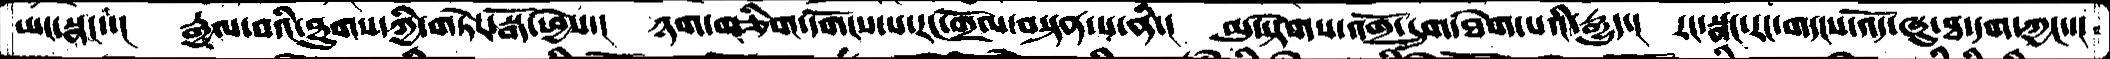ཡང་སྣང་་།   རྒྱལ་བའི་ཐུགས་ཀྱི་གཏེར་སྒོ་ཕྱེས་།  ཉག་གཅིག་དགོངས་པ་རང་གྲོལ་བསྟན་པ་ནི་།  མུ་སྟེགས་འགྲོ་དྲུག་ཐེག་པའི་རྒྱུད་།  རང་སྣང་རང་གདངས་འོད་ཞུ་ཐ་དག་ཀྱང་་།
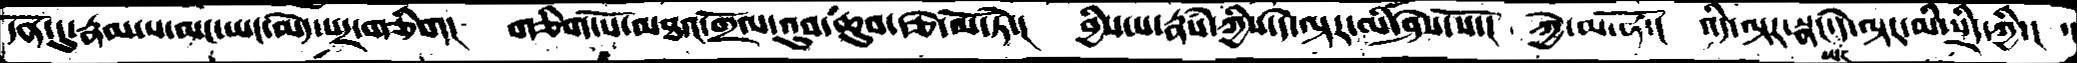དོན་དུ་རྣམ་པ་མང་ཡང་མེད་པར་གཅིག།   གཅིག་པོ་མཐའ་གྲོལ་འུབ་ཆུབ་རྩེ་མོ་ཏེ་།   བྱིས་པ་རྣཾས་ཀྱིས་དེ་ལྟར་མི་ཤེས་སོ་།  ཀྱེ་མ་ཧོ་།  འདི་ལྟར་སྣང་དེ་ལྟར་མི་སྲིད་ཀྱི་།  ་།
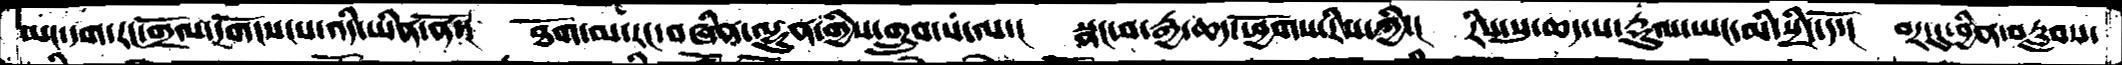ཡང་དག་རང་གྲོལ་དགོངས་པ་འདི་ཡིན་ནོ་།  ཐོག་མ་རང་བཞིན་ལྷུན་གྱིས་གྲུབ་པ་ལ་།  སྣང་བ་རྒྱ་ཆད་ཕྱོགས་རིས་ཀྱི་།  རིས་སུ་ཆད་པ་རྡུལ་ཡང་མི་སྲིད་དོ་།  བར་དུ་བྱིན་བརླབས་
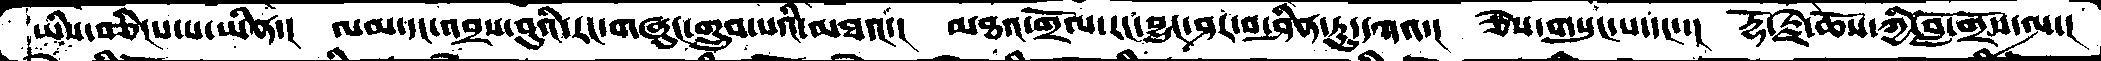ཡིས་བཅིངས་པ་ཡིན་།   ལམ་དང་འབྲས་བུའི་རང་གཞུང་གྲུབ་པའི་མཐའ་།   མཐའ་གྲོལ་རང་བྱུང་ཤར་བ་ཤིན་ཏུ་དཀའ་།  ཅེས་གསུང་པ་དང་་།  རྡོ་རྗེ་ཆོས་ཀྱི་བློ་གྲོས་ལ་།
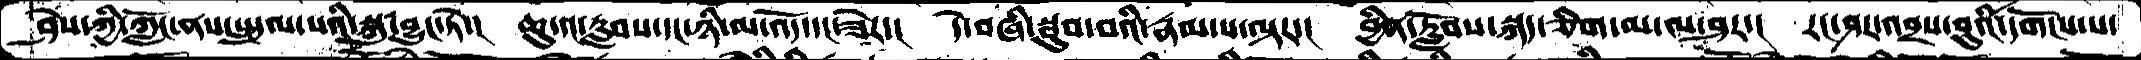ཤེས་ཀྱི་ཀློང་ནས་སྤྲུལ་པའི་སྐུ་བྱུང་ཏེ་།   ཆུ་༤་རླབས་དང་ཉི་མ་འོད་དང་ཟེར་།   དེ་བཞི་སྦུབ་བའི་རྣམ་པ་ལྟར་།  བྱིན་རློབས་སྐད་ཅིག་མ་ལ་ཤར་།   རང་ཤར་འབྲས་བུའི་དགོངས་པ་
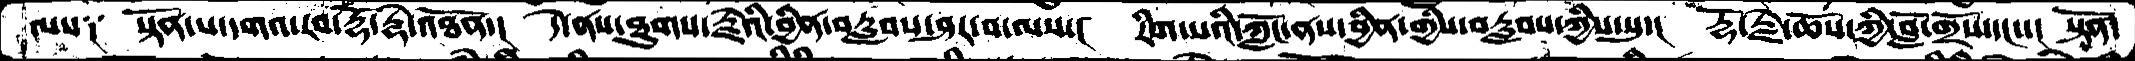ལས༑   སྟོན་པ་དགའ་རབ་རྡོ་རྗེ་འཐོན་།   དེ་ནས་ཐུགས་རྗེའི་བྱིན་བརླབས་ཤར་བ་ལས་།  རིག་པའི་ཀློང་ནས་བྱིན་གྱིས་བརླབས་ཀྱིས་སུ་།  རྡོ་རྗེ་ཆོས་ཀྱི་བློ་གྲོས་དང་་།  སྟོན་
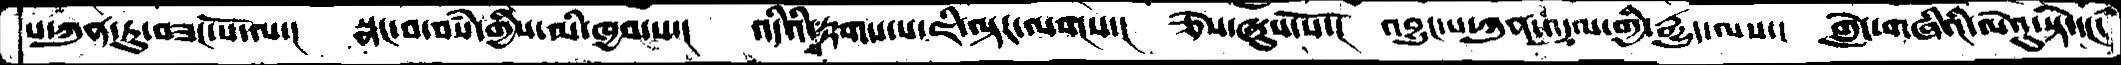པ་ཀུན་ཏུ་བཟང་པོ་ལ་།   སྣང་བ་བསཾ་གྱིས་མི་ཁྱབ་པ་།  འདིའི་རྟགས་པ་ཇི་ལྟར་ལགས་།   ཅེས་ཞུས་སོ་།   འབྱུང་པ་ཀུན་འདུལ་གྱི་རྒྱུད་ལས་།  གླེང་གཞིའི་ལེའུ་སྟེ་དང་
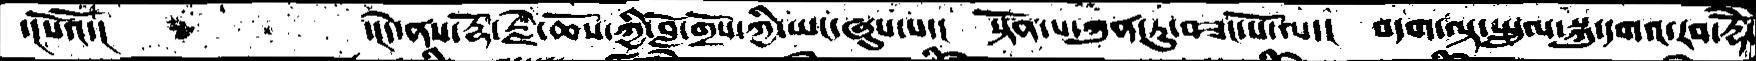་།པའོ་།             ་།དེ་ནས་རྡོ་རྗེ་ཆོས་ཀྱི་བློ་གྲོས་ཀྱི་ཡང་ཞུས་པ་།   སྟོན་པ་ཀུན་ཏུ་བཟང་པོ་ལ་།   བདག་ལྟ་སྤྲུལ་སྐུ་དགའ་རབ་རྡོེ་
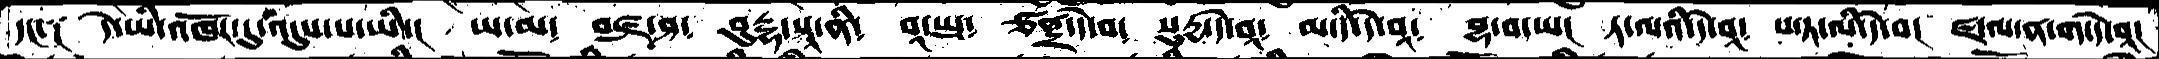དང་༑   དེ་ཡི་འཁོར་དུ་འདུས་པ་ཡི་།   ཡ་མ༴  བཛྲ་ཤ༴  བུདྡྷ་སྟཱ་ནི༴   བཱ་ཡུ༴  ཙནྡྲ་དེ་བ༴  སུརྱ་དེ་བཱ༴   མ་དི་དེ་བཱ༴   བྷ་བ་ཡ།  ཏ་ལའི་དེ་བཱ༴ པ་ཏ་ལི་དེ་བ།  ཛ་ལ་ན་ག་དེ་བཱ།
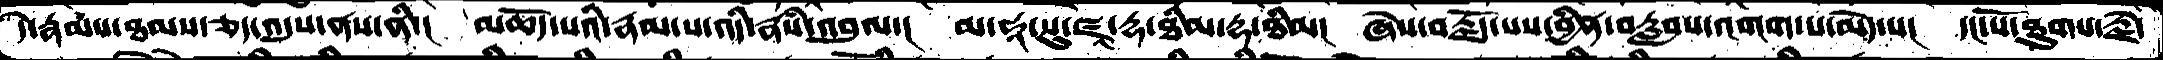དེ་རྣམས་ཐམས་ཅད་འདུས་ནས་ནི་།  མཆོད་པའི་རྣམ་པ་འདི་རྣཾས་འབུལ་།  མ་ཧཱ་སུ་ཛཱ་རྡ་ཐིམ་རྡ་ཐིམ།  ཞེས་བརྗོད་པས་བྱིན་བརླབས་འགག་པ་མེད་པ།  དང་པོ་ཐུགས་རྗེ་
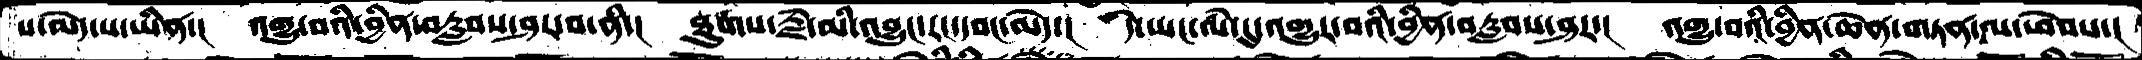པ་མེད་པ་ཡིན་།  འགྱུ་བའི་བྱིན་བརླབས་ཤར་བ་ནི་།  ཐུགས་རྗེ་མི་འབྱུང་རང་དབང་མེད་།  དེ་ཡང་ལཾ་དུ་འགྱུར་བའི་བྱིན་བརླབས་ཤར་།  འགྱུ་བའི་བྱིན་ཆེན་གཏན་ལ་ཕེབས་།
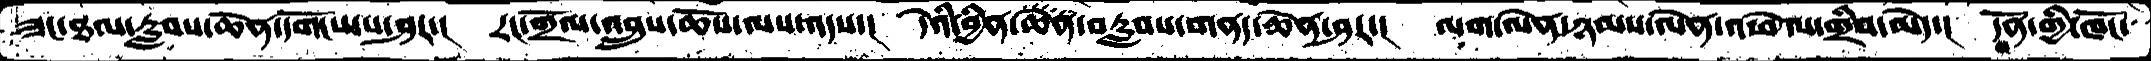ཟང་ཐལ་རླབས་ཆེན་དགོངས་པ་ཤར་།  རང་གྲོལ་འབྲུས་ཆོས་ལས་འདས་།  དེའི་བྱིན་ཆེན་བརླབས་གནད་ཆེན་ཤར་།  ལག་ལེན་ཉམས་ལེན་འཕེལ་གྲིབ་མེད་།  དོན་གྱི་ཁོང་
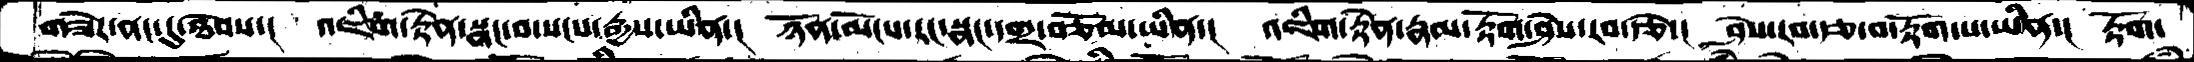གཟེརནང་དུ་ཐེབས་།  འཐིག་རྟེན་སྣང་བ་སངས་རྒྱས་ཡིན་།  ཉོན་མོངས་རང་སྣང་དགྲ་བཅོམ་ཡིན་།  འཇིག་རྟེན་རྣམ་རྟོག་ཤེས་རབ་རྩེ་།  ཤེས་རབ་རྩ་བ་རྟོག་པ་ཡིན་།  རྟོག་
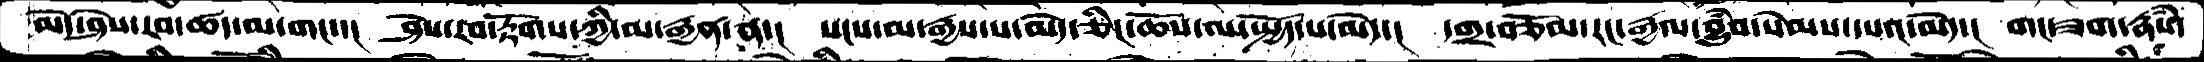མེད་ཤེས་རབ་ཚད་མ་གང་་།  ཤེས་རབ་རྟོགས་ཀྱི་མ་རྒྱན་ན་།  སངས་མ་རྒྱས་པ་མེད་ཅིང་ཆོས་ལ་སྤྱོད་པ་མེད་།  དགྲ་བཅོམ་རང་རྒྱལ་བྱུཾབ་སེམས་དཔའ་མེད་།  གང་ཟག་རྣཾས་
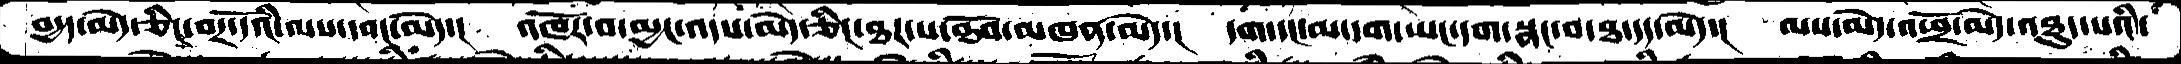བདྱད་མེད་ཅིང་བར་དོའི་ལས་དབང་མེད་།  འཁོར་བ་མྱང་འདས་མེད་ཅིང་ཐར་པ་ཐོབ་མཁན་མེད་།  དག་དང་མ་དག་ཡང་དག་སྣང་བ་ཐ་དད་མེད་།  ལས་མེད་འཕྲོ་མེད་འཐུད་པའི་
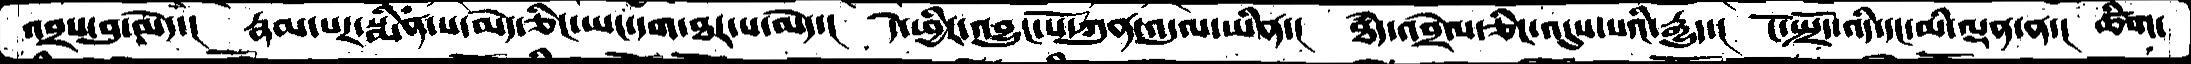འབྲས་བུ་མེད་།  རྣམ་པར་སྨིན་པ་མེད་ཅིང་ཡང་དག་ཐར་པ་མེད་།  དེ་ཕྱིར་འབྱུང་པོ་ཀུན་འདུལ་ཡིན་།  ཐདཾ་འབྲེལ་ཅིང་འདུས་པའི་རྒྱུད་།  ངོ་སྤྲོད་འདི་དང་མི་ལྡན་ན་།  ཚིག་
